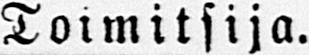Toimitsija.
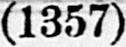(1357)
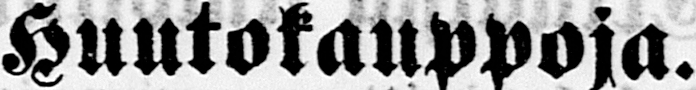Huutokauppoja.
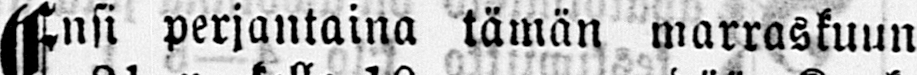Ensi perjantaina tämän marraskuun
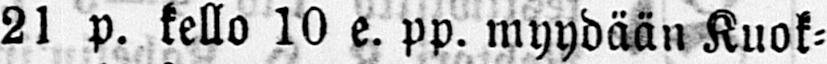21 p. kello 10 e. pp. myydään Kuok-
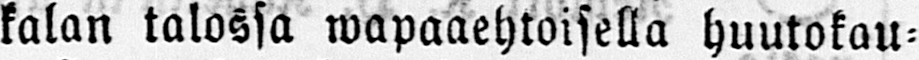kalan talossa wapaaehtoisella huutokau-
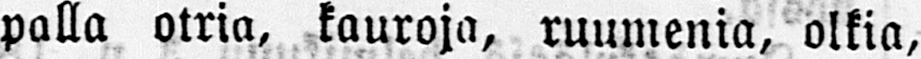palla otria, kauroja, ruumenia, olkia,
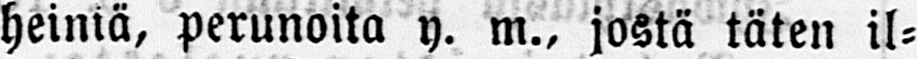heiniä, perunoita y. m., jostä täten il-
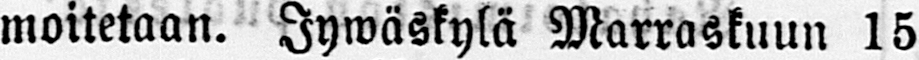moitetaan. Jywäskylä Marraskuun 15
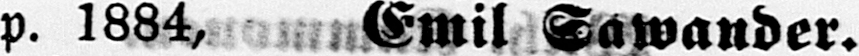p. 1884, Emil Sawander.
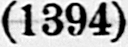(1394)
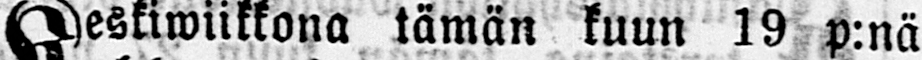Keskiwiikkona tämän kuun 19 p:nä
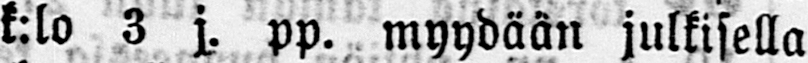k:lo 3 j. pp. myydään julkisella
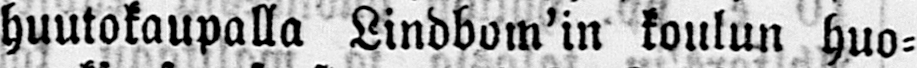huutokaupalla Lindbom'in koulun huo-
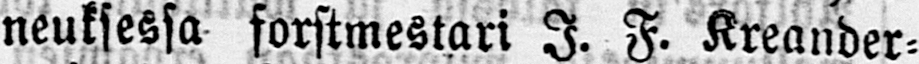neuksessa forstmestari I. F. Kreander-
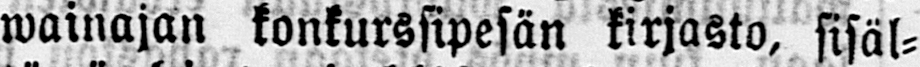wainajan konkurssipesän kirjasto, sisäl-
